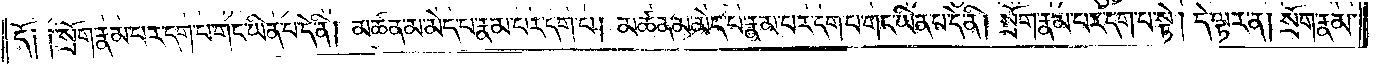དོ། །སྲོག་རྣམ་པར་དག་པ་གང་ཡིན་པ་དེ་ནི། མཚན་མ་མེད་པ་རྣམ་པར་དག་པ། མཚན་མ་མེད་པ་རྣམ་པར་དག་པ་གང་ཡིན་པ་དེ་ནི། སྲོག་རྣམ་པར་དག་པ་སྟེ། དེ་ལྟར་ན། སྲོག་རྣམ་
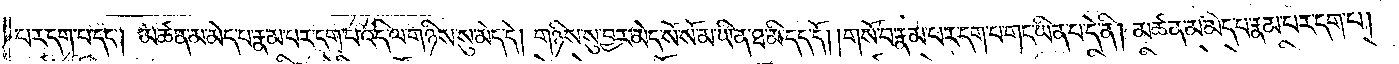པར་དག་པ་དང༌། མཚན་མ་མེད་པ་རྣམ་པར་དག་པ་འདི་ལ་གཉིས་སུ་མེད་དེ། གཉིས་སུ་བྱར་མེད་སོ་སོ་མ་ཡིན་ཐ་མི་དད་དོ། །གསོ་བ་རྣམ་པར་དག་པ་གང་ཡིན་པ་དེ་ནི། མཚན་མ་མེད་པ་རྣམ་པར་དག་པ།
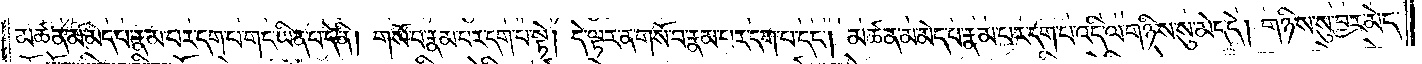མཚན་མ་མེད་པ་རྣམ་པར་དག་པ་གང་ཡིན་པ་དེ་ནི། གསོ་བ་རྣམ་པར་དག་པ་སྟེ། དེ་ལྟར་ན། གསོ་བ་རྣམ་པར་དག་པ་དང༌། མཚན་མ་མེད་པ་རྣམ་པར་དག་པ་འདི་ལ་གཉིས་སུ་མེད་དེ། གཉིས་སུ་བྱར་མེད་
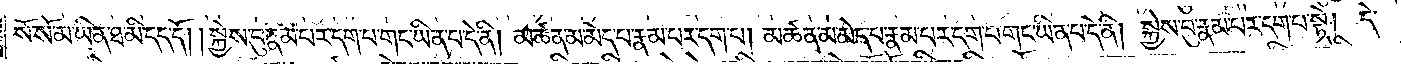སོ་སོ་མ་ཡིན་ཐ་མི་དད་དོ། །སྐྱེས་བུ་རྣམ་པར་དག་པ་གང་ཡིན་པ་དེ་ནི། མཚན་མ་མེད་པ་རྣམ་པར་དག་པ། མཚན་མ་མེད་པ་རྣམ་པར་དག་པ་གང་ཡིན་པ་དེ་ནི། སྐྱེས་བུ་རྣམ་པར་དག་པ་སྟེ། དེ་
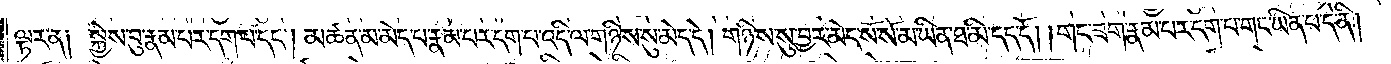ལྟར་ན། སྐྱེས་བུ་རྣམ་པར་དག་པ་དང༌། མཚན་མ་མེད་པ་རྣམ་པར་དག་པ་འདི་ལ་གཉིས་སུ་མེད་དེ། གཉིས་སུ་བྱར་མེད་སོ་སོ་མ་ཡིན་ཐ་མི་དད་དོ། གང་ཟག་རྣམ་པར་དག་པ་གང་ཡིན་པ་དེ་ནི།
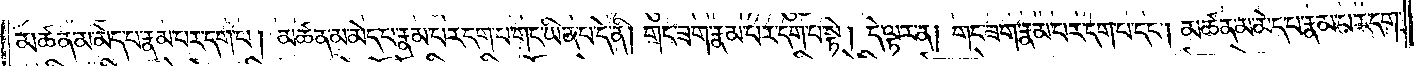མཚན་མ་མེད་པ་རྣམ་པར་དག་པ། མཚན་མ་མེད་པ་རྣམ་པར་དག་པ་གང་ཡིན་པ་དེ་ནི། གང་ཟག་རྣམ་པར་དག་པ་སྟེ། དེ་ལྟར་ན། གང་ཟག་རྣམ་པར་དག་པ་དང༌། མཚན་མ་མེད་པ་རྣམ་པར་དག་
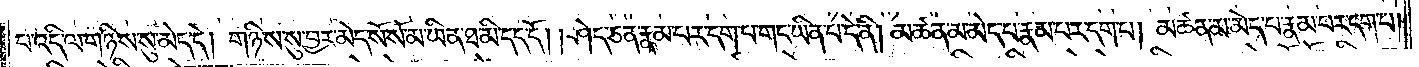པ་འདི་ལ་གཉིས་སུ་མེད་དེ། གཉིས་སུ་བྱར་མེད་སོ་སོ་མ་ཡིན་ཐ་མི་དད་དོ། །ཤེད་ཅན་རྣམ་པར་དག་པ་གང་ཡིན་པ་དེ་ནི། མཚན་མ་མེད་པ་རྣམ་པར་དག་པ། མཚན་མ་མེད་པ་རྣམ་པར་དག་པ་
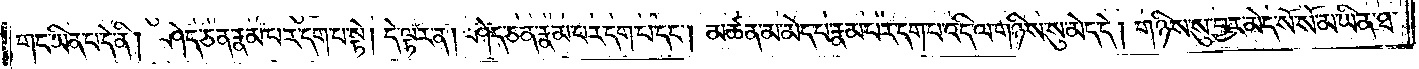གང་ཡིན་པ་དེ་ནི། ཤེད་ཅན་རྣམ་པར་དག་པ་སྟེ། དེ་ལྟར་ན། ཤེད་ཅན་རྣམ་པར་དག་པ་དང༌། མཚན་མ་མེད་པ་རྣམ་པར་དག་པ་འདི་ལ་གཉིས་སུ་མེད་དེ། གཉིས་སུ་བྱར་མེད་སོ་སོ་མ་ཡིན་ཐ་
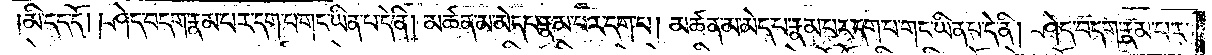མི་དད་དོ། །ཤེད་བདག་རྣམ་པར་དག་པ་གང་ཡིན་པ་དེ་ནི། མཚན་མ་མེད་པ་རྣམ་པར་དག་པ། མཚན་མ་མེད་པ་རྣམ་པར་དག་པ་གང་ཡིན་པ་དེ་ནི། ཤེད་བདག་རྣམ་པར་
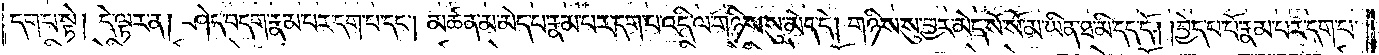དག་པ་སྟེ། དེ་ལྟར་ན། ཤེད་བདག་རྣམ་པར་དག་པ་དང༌། མཚན་མ་མེད་པ་རྣམ་པར་དག་པ་འདི་ལ་གཉིས་སུ་མེད་དེ། གཉིས་སུ་བྱར་མེད་སོ་སོ་མ་ཡིན་ཐ་མི་དད་དོ། །བྱེད་པ་པོ་རྣམ་པར་དག་པ་
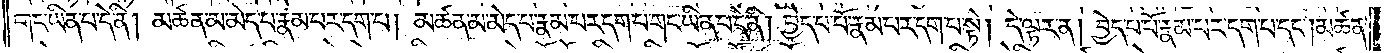གང་ཡིན་པ་དེ་ནི། མཚན་མ་མེད་པ་རྣམ་པར་དག་པ། མཚན་མ་མེད་པ་རྣམ་པར་དག་པ་གང་ཡིན་པ་དེ་ནི། བྱེད་པ་པོ་རྣམ་པར་དག་པ་སྟེ། དེ་ལྟར་ན། བྱེད་པ་པོ་རྣམ་པར་དག་པ་དང༌། མཚན་
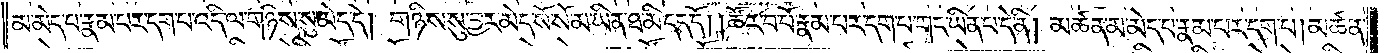མ་མེད་པ་རྣམ་པར་དག་པ་འདི་ལ་གཉིས་སུ་མེད་དེ། གཉིས་སུ་བྱར་མེད་སོ་སོ་མ་ཡིན་ཐ་མི་དད་དོ། །ཚོར་བ་པོ་རྣམ་པར་དག་པ་གང་ཡིན་པ་དེ་ནི། མཚན་མ་མེད་པ་རྣམ་པར་དག་པ། མཚན་
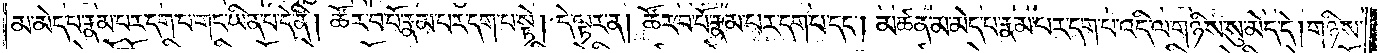མ་མེད་པ་རྣམ་པར་དག་པ་གང་ཡིན་པ་དེ་ནི། ཚོར་བ་པོ་རྣམ་པར་དག་པ་སྟེ། དེ་ལྟར་ན། ཚོར་བ་པོ་རྣམ་པར་དག་པ་དང༌། མཚན་མ་མེད་པ་རྣམ་པར་དག་པ་འདི་ལ་གཉིས་སུ་མེད་དེ། གཉིས་
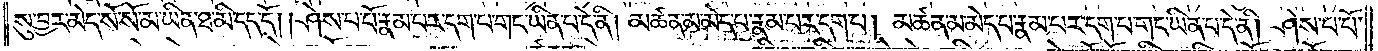སུ་བྱར་མེད་སོ་སོ་མ་ཡིན་ཐ་མི་དད་དོ། །ཤེས་པ་པོ་རྣམ་པར་དག་པ་གང་ཡིན་པ་དེ་ནི། མཚན་མ་མེད་པ་རྣམ་པར་དག་པ། མཚན་མ་མེད་པ་རྣམ་པར་དག་པ་གང་ཡིན་པ་དེ་ནི། ཤེས་པ་པོ་
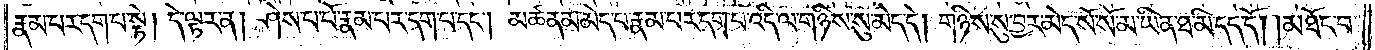རྣམ་པར་དག་པ་སྟེ། དེ་ལྟར་ན། ཤེས་པ་པོ་རྣམ་པར་དག་པ་དང༌། མཚན་མ་མེད་པ་རྣམ་པར་དག་པ་འདི་ལ་གཉིས་སུ་མེད་དེ། གཉིས་སུ་བྱར་མེད་སོ་སོ་མ་ཡིན་ཐ་མི་དད་དོ། །མཐོང་བ་
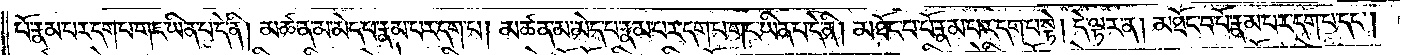པོ་རྣམ་པར་དག་པ་གང་ཡིན་པ་དེ་ནི། མཚན་མ་མེད་པ་རྣམ་པར་དག་པ། མཚན་མ་མེད་པ་རྣམ་པར་དག་པ་གང་ཡིན་པ་དེ་ནི། མཐོང་བ་པོ་རྣམ་པར་དག་པ་སྟེ། དེ་ལྟར་ན། མཐོང་བ་པོ་རྣམ་པར་དག་པ་དང༌།
